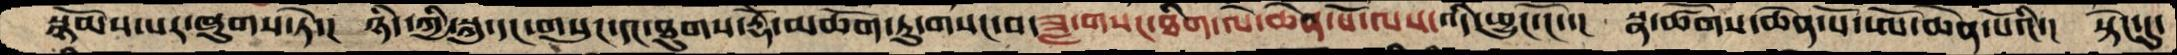སྙོམས་པར་ཞུགས་ཏེ་།  ཉིད་ཀྱི་སྐུ་དང་གསུང་དང་ཐུགས་རྡོེ་མཆོག་ཏུ་གསང་བ་ཟླ་གསང་ཐིག་ལེ་ཆེན་པོ་ལས་འདི་ཕྱུང་ངོ་།  སྣ་ཚོགས་ཆེན་པོ་ཨོ་ཆེན་པོའི་།  སྟེང་དུ་
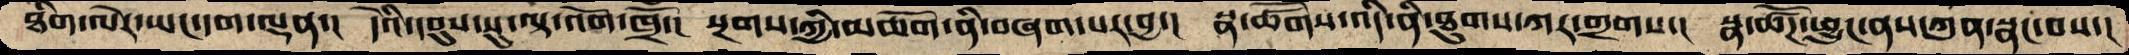ཐིག་ལེར་ཡང་དག་ལྡན་།  དེའི་དབུས་སུ་ལྟ་འོག་ཁྲོ་།  སྔགས་ཀྱི་མཆོག་ནི་བཞག་པར་བྱ་།  སྣ་ཚོགས་འདི་ནི་ཐུགས་ཀར་གྲགས་།  སྣ་ཚོཌ་ཕྱུང་ནས་ཀུན་སྣང་བས་།
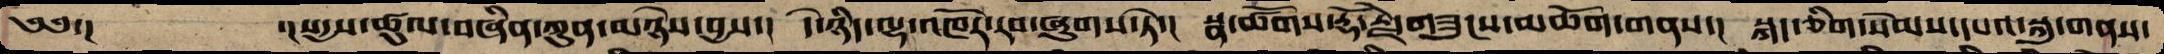༄༅་།       ་།སདྱས་ཚུལ་བཞིན་ཀུན་མཉེས་བྱས་།  དེ་ཉིད་ལྷ་འཁོར་རབ་ཞུགས་ཏེ་།  སྣ་ཚོགས་རྡོ་རྗེ་གཟུངས་མཆོག་གནས་།  སྐད་ཅིག་སེམས་དཔའ་སྐུ་གནས་
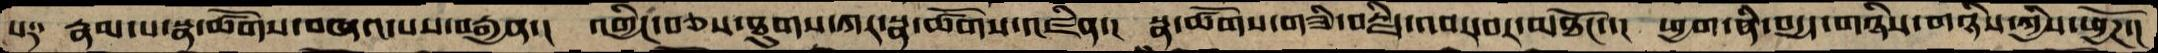ས༑  རྣམ་པ་སྣ་ཚོགས་བཞའ་པས་བརྒྱན་།  འགྱིང་བཅས་ཐུགས་ཀར་སྣ་ཚོགས་འཛིན་།  སྣ་ཚོགས་གཟི་བརྗིད་འབར་བར་མཐོང་་།  ཕྱག་ནི་བདྱད་གཉིས་གཉིས་ཀྱིས་ཕྱོཌ་།
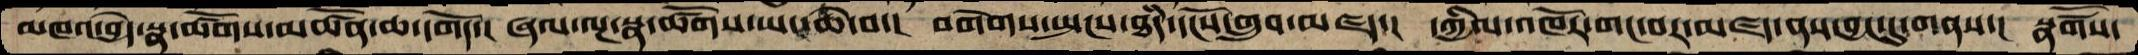མཁའ་བྱེད་སྣ་ཚོགས་མཚོན་ཆ་དགོད་།  ཞལ་ལྔ་སྣ་ཚོགས་ཡང་ཆེ་བ་།  བགེགས་སྤངས་ཐཾད་དངོས་གྲུབ་མཛད་།  དཀྱིལ་འཁོར་གང་བར་མཛད་ནས་བྱང་དུ་གནས་། སྣོ༹གས་
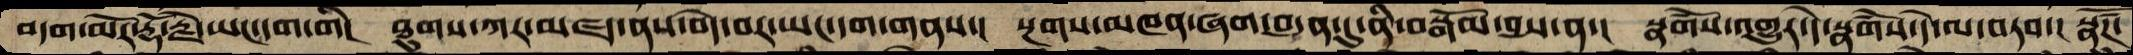བདག་མོར་རྡོ་རྗེ་ཡང་དག་གི།  ཐུགས་ཀར་མཛད་ནས་བདེ་བར་ཡང་དག་གནས་།  སྔགས་མཁན་ཞག་བདུན་དུ་ནི་བསྒོམ་བྱས་ན་།  སྣཚོགས་འགྱུར་དེ་སྣཚོགས་དེ་ལ་བཏབ་།  སྣཚོཌ
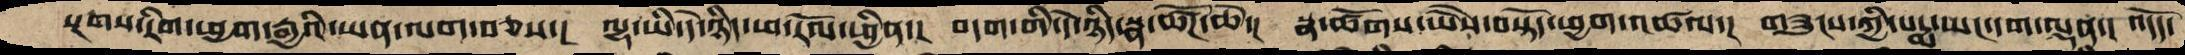སྔགས་རིག་ཕྱག་རྒྱའི་ཡན་ལག་བཅས་།  ལྷ་ཡི་དེ་ཉིད་ཕ་རོལ་ཕྱིན་།  བདག་གི་དེ་ཉིད་སྣ་ཚོཌ་ཆེ་།  སྣ་ཚོགས་ཡཻས་བསྟོད་ཕྱག་འཚལ་།  གཟུངས་ཀྱི་པདྨ་ཡང་དག་ལྡན་།  འདོད་
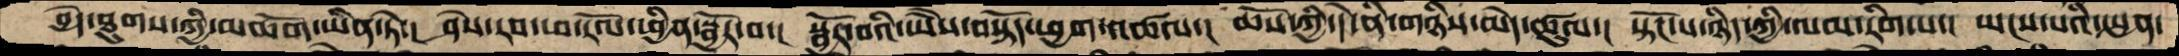བྱེད་ཐུགས་ཀྱི་མཆོག་ཡིན་ཏེ་།  ཤེས་རབ་ཕ་རོལ་ཕྱིན་སྦྱོར་བ་།  སྦྱོར་བའི་ཡཻས་བསྟོད་ཕྱག་འཚལ་།  ཆོས་ཀྱི་དེ་ནི་གཉིས་མེད་ཚུལ་།  སྟོང་པ་ཉིད་ཀྱི་ལམ་རིག་པ་།  ཡངས་པའི་སྤྱན་
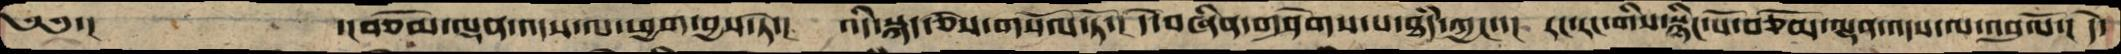༄༅་།         ་།བཅོམ་ལྡན་འདས་ལ་ཕྱག་བྱས་ཏེ་།  འདི་སྐད་ཅེས་གསོལ་ཏོ་།  དེ་བཞིན་གཤེགས་པ་ཐཾད་ཀྱང་་།  རང་རང་གིས་སྙིང་པོ་བཅོམ་ལྡན་འདས་ལ་འབུལོ་། དེ་
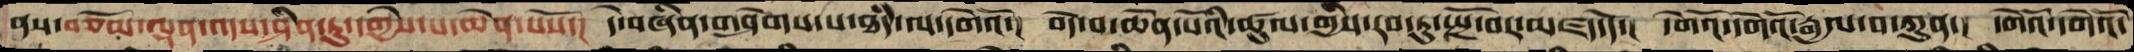ནས་བཅོམ་ལྡན་འདས་ཤིན་ཏུ་དགྱེས་པ་ཆེན་པོས་།   དེ་བཞིན་གཤེགས་པ་ཐཾད་ལ་དགེའོ་།   བདེ་བ་ཆེན་པོའི་ཚུལ་གྱིས་རབ་ཏུ་སྤྲོ་བར་མཛད་དོ་།  དགེའོ་དགེའོ་རྒྱལ་བ་ཀུན་།  དགེའོ་དགེའོ་
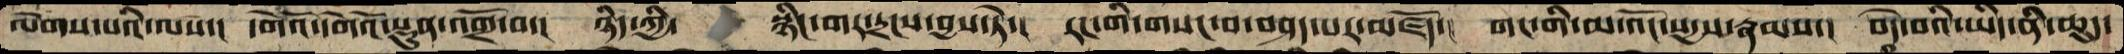ལེགས་པའི་ལས་།  དགེའོ་དགེའོ་སྡུན་འགྲོ་བ་།  ཉིད་ཀྱི་  སྙིང་གར་དྲངས་བྱས་ཏེ་།  རང་གི་གསང་བ་བཤད་པར་མཛོད་།  གང་གི་མ་འོངས་སདྱས་རྣམས་།  བདེ་བའི་ཡིད་ནི་ཆུད་
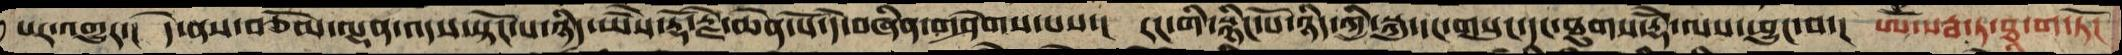པར་འགྱུར་།  དེ་ནས་བཅོམ་ལྡན་འདས་སྟོང་པ་ཉིད་ཡཻས་རྡོ་རྗེ་ཆེན་པོ་དེ་བཞིན་གཤེགས་པས་།  རང་གི་སྙིང་པོ་ཉིད་ཀྱི་སྐུ་དང་གསུང་དང་ཐུགས་རྡོེ་ལས་ཕྱུང་བ་།  ཨོཾ་སརྦ་ཏ་ཐཱ་ག་ཏོ།
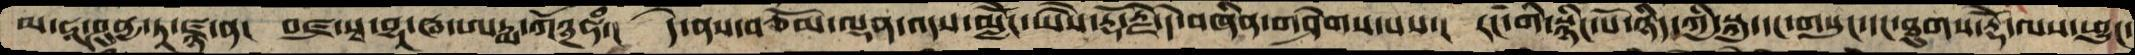མ་ཧཱ་ཤུནྱ་ཏཱ་ཛྙ་ན་  བཛྲ་སྭ་བྷཱ་ཝ་ཨཏྨ་ཀོ྅ཧཾ་།  དེ་ནས་བཅོམ་ལྡན་འདས་མླེོང་ཡཻས་རྡོ་རྗེ་དེ་བཞིན་གཤེགས་པས་།  རང་གི་སྙིང་པོ་ཉིད་ཀྱི་སྐུ་དང་གསུང་དང་ཐུགས་རྡོེ་ལས་ཕྱུང་
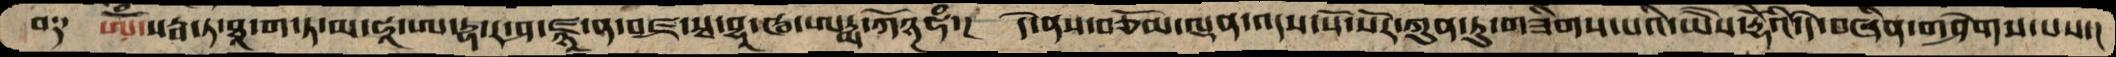བ༑  ཨོཾ་སརྦ་ཏ་ཐཱ་ག་ཏ་མ་ཧཱ་ཨ་དྷ་ར་ཤ་ཛྙཱ་ན་བཛྲ་སྭ་བྷཱ་ཝ་ཨཏྨ་ཀོ྅ཧཾ་།  དེ་ནས་བཅོམ་ལྡན་འདས་སོ་སོར་ཀུན་ཏུ་གཟིགས་པའི་ཡཻས་རྡོེའི་དེ་བཞིན་གཤེགས་པས་།
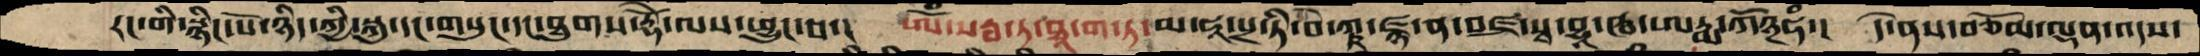རང་གི་སྙིང་པོ་ཉིད་ཀྱི་སྐུ་དང་གསུང་དང་ཐུགས་རྡོེ་ལས་ཕྱུང་བ་།  ཨོཾ་སརྦ་ཏ་ཐཱ་ག་ཏ་མ་ཧཱ་པྲ་ཏི་བི་ཀྵ་ཛྙ་ན་བཛྲ་སྭ་བྷཱ་ཝ་ཨཏྨ་ཀོཉཧཾ་།  དེ་ནས་བཅོམ་ལྡན་འདས་
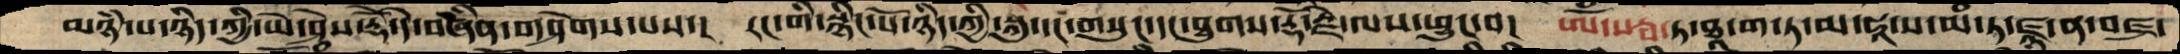མཉཾ་པ་ཉིད་ཀྱི་ཡེ་ཤེས་རྡོེ་དེ་བཞིན་གཤེགས་པས་།  རང་གི་སྙིང་པོ་ཉིད་ཀྱི་སྐུ་དང་གསུང་དང་ཐུགས་རྡོ་རྗེ་ལས་ཕྱུང་བ་།  ཨོཾ་སརྦ་ཏ་ཐཱ་ག་ཏ་མ་ཧཱ་པ་མཾ་ཏ་ཛྙ་ན་བཛྲ་
